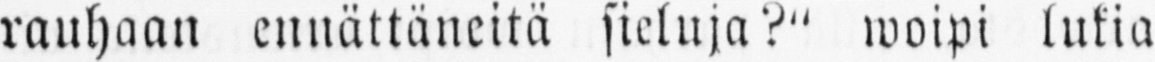rauhaan ennättäneitä sieluja?" woipi lukia
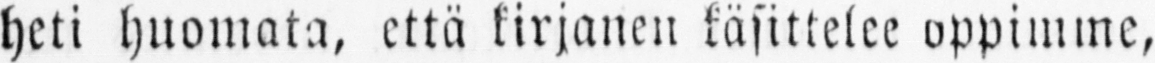heti huomata, että kirjanen käsittelee oppimme,
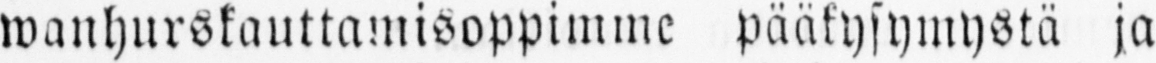wanhurskauttamisoppimme pääkysymystä ja
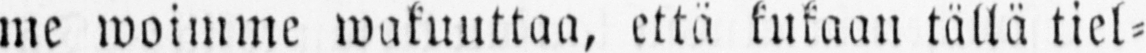me woimme wakuuttaa, että kukaan tällä tiel-
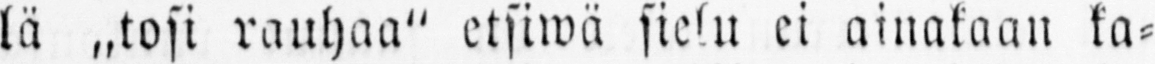lä „tosi rauhaa" etsiwä sielu ei ainakaan ka-
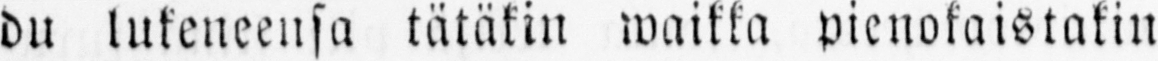du lukeneensa tätäkin waikka pienokaistakin
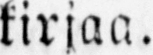kirjaa.
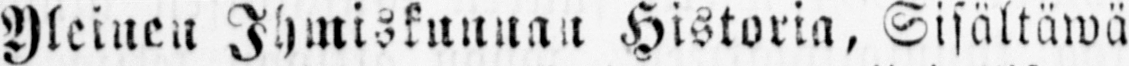Yleinen Ihmiskunnan Historia, Sisältäwä
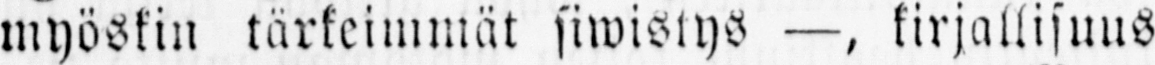myöskin tärkeimmät siwistys —, kirjallisuus
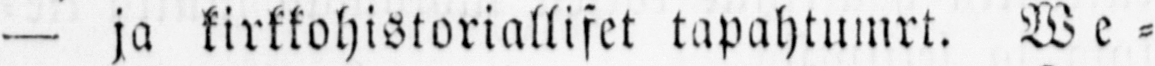— ja kirkkohistorialliset tapahtumrt. We -
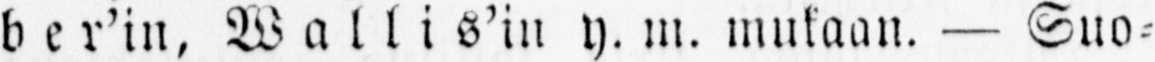b er’in, Wallis’in y. m. mukaan. — Suo-
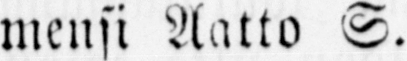mensi Aatto S.
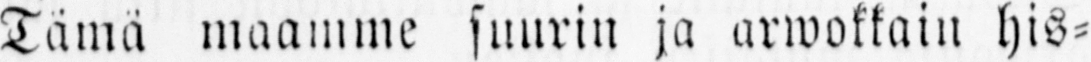Tämä maamme suurin ja arwokkain his-
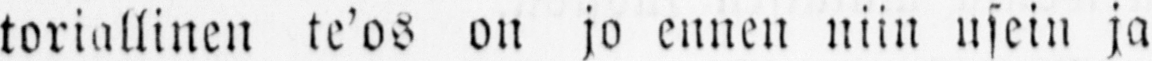toriallinen te’os on jo ennen niin usein ja
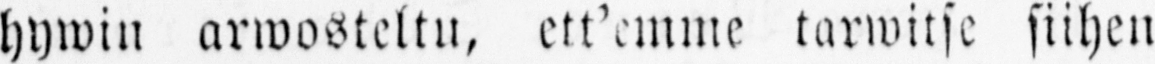hywin arwosteltu, ett’emme tarwitse siihen
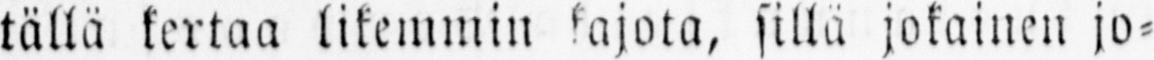tällä kertaa likemmin kajota, silla jokainen jo-
